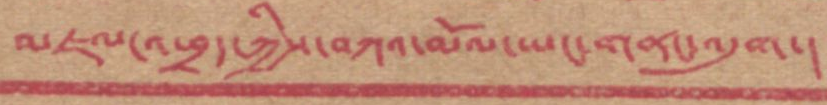མཇལ་འཕྲད་ཀྱིས་བཀའ་མོལ་ཡང་གནང་འདུག།
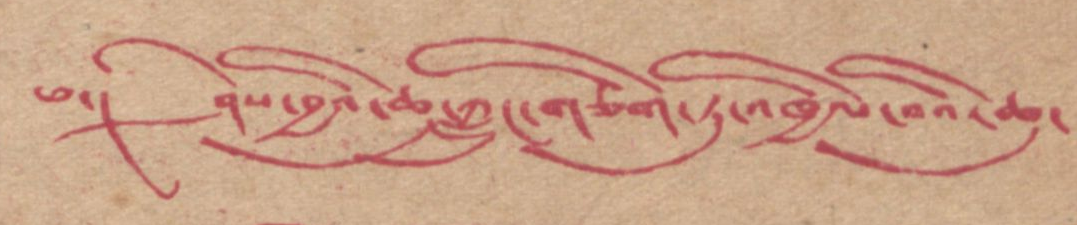༄། ཤེས་བྱའི་ཆུ་ཀླུང་གཅིག་ཏུ་འཁྱིལ་བའི་ཆུ་
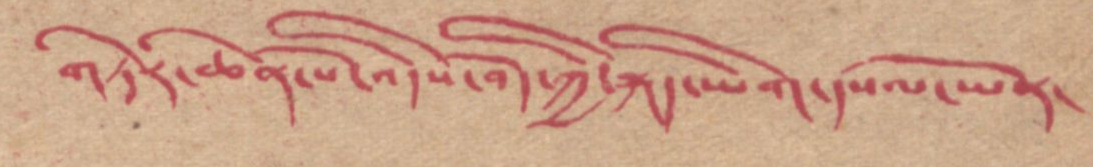གཏེར་ཆེན་པོ་འདིས་བོད་ཀྱི་སྐད་ཡིག་དཔལ་ཡོན་
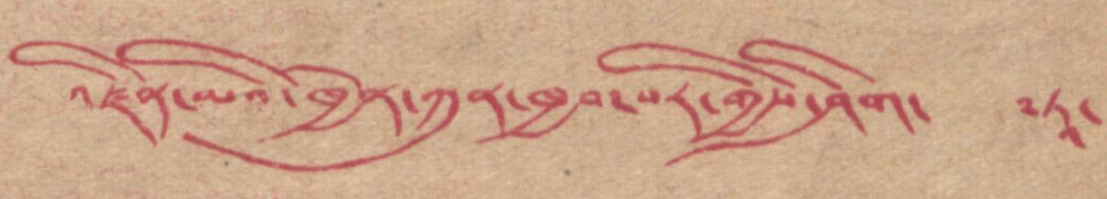འཛིན་མའི་ཁྱོན་ཀུན་ཁྱབ་པར་གྱིས་ཤིག་ ༸ཏཱ་
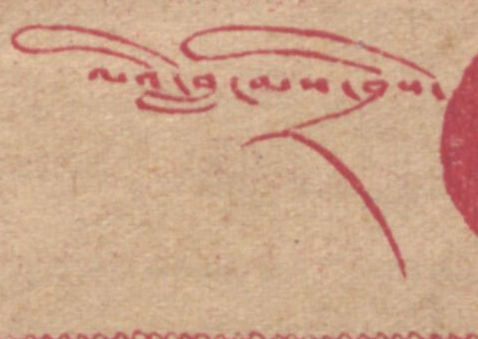ལའི་བླ་མས་བྲིས་
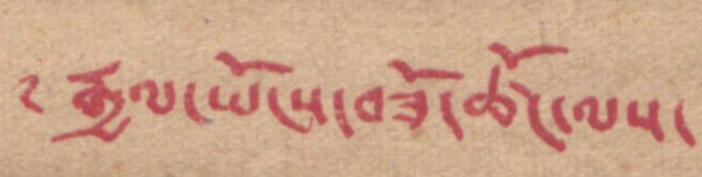༸རྒྱལ་ཡོངས་བཟོ་ཚོང་ལས་
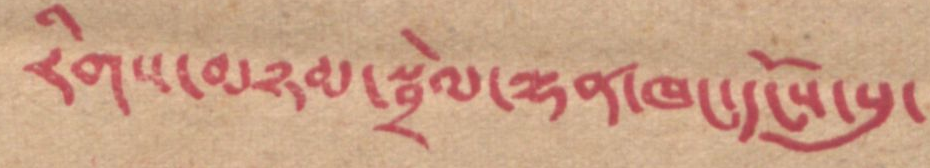རིགས་མཉམ་སྦྲེལ་ལྷན་ཁང་དངོས་སུ་
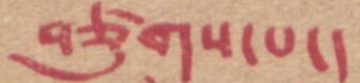བཙུགས་པ།
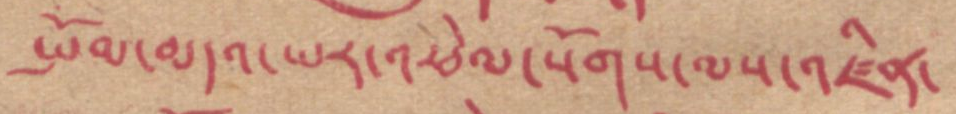སྤོམ་བདའ་ཡར་འཕེལ་སོགས་མས་འཛིན་
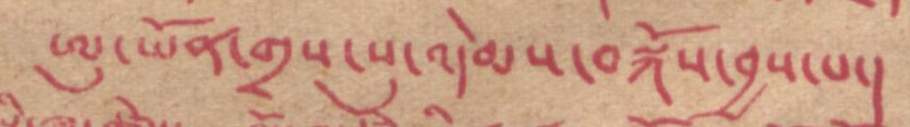ཨུ་ཡོན་གྲས་སུ་འདེམས་བསྐོས་བྱས་པ།
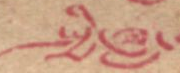སྤྱི་ཟླ་
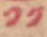༡༡
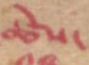ཚེས་
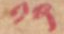༡༢
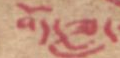བོད་ཟླ་
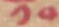༡༠
